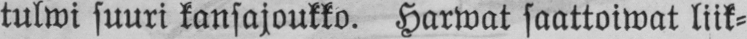tulwi suuri kansajoukko. Harwat saattoiwat liik-
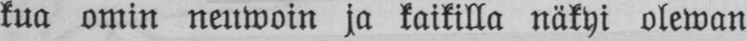kua omin neuwoin ja kaikilla näkyi olewan
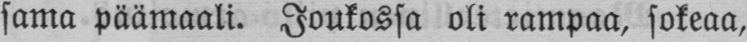sama päämaali. Joukossa oli rampaa, sokeaa,
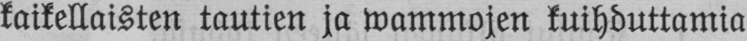kaikellaisten tautien ja wammojen kuihduttamia
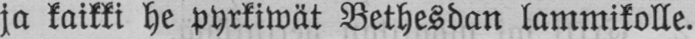ja kaikki he pyrkiwät Bethesdan lammikolle.
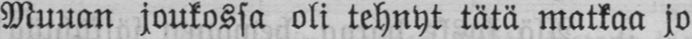Muuan joukossa oli tehnyt tätä matkaa jo
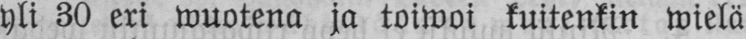yli 30 eri wuotena ja toiwoi kuitenkin wielä
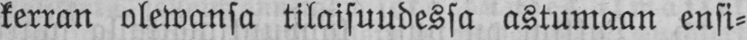kerran olewansa tilaisuudessa astumaan ensi-
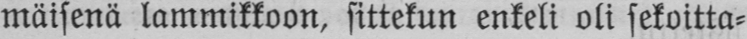mäisenä lammikkoon, sittekun enkeli oli sekoitta-
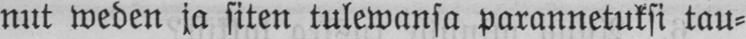nut weden ja siten tulewansa parannetuksi tau-
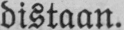distaan.
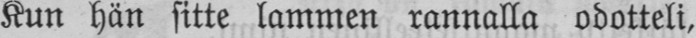Kun hän sitte lammen rannalla odotteli,
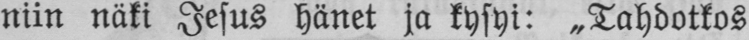niin näki Jesus hänet ja kysyi: „ Tahdotkos
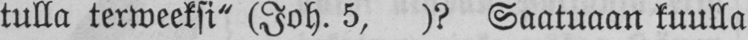tulla terweeksi" (Joh. 5, )? Saatuaan kuulla
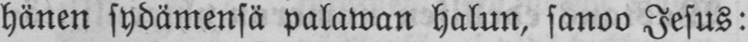hänen sydämensä palawan halun, sanoo Jesus:
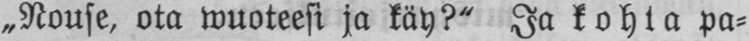„ Nouse, ota wuoteesi ja käy?" Ja kohta pa-
